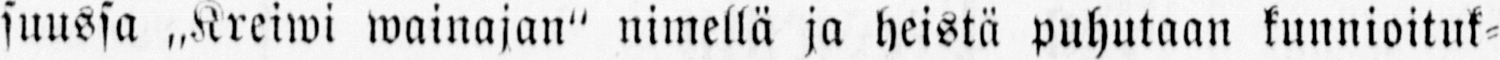suussa „Kreiwi wainajan" nimellä ja heistä puhutaan kunnioituk-
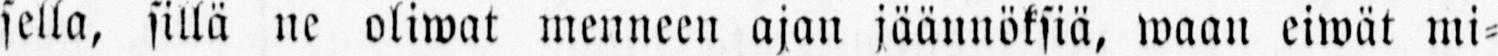sella, sillä ne oliwat menneen ajan jäännöksiä, waan eiwät mi-
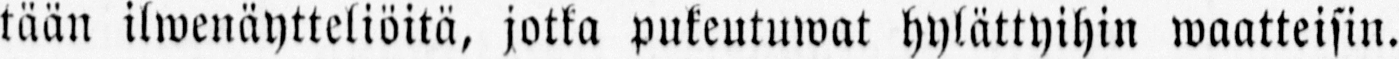tään ilwenäytteliöitä, jotka pukeutuwat hylättyihin waatteisin.
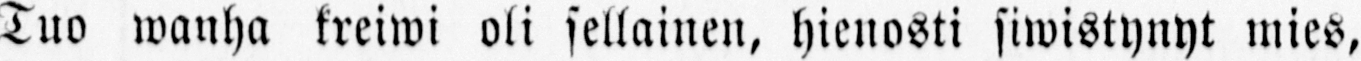Tuo wanha kreiwi oli sellainen, hienosti siwistynyt mies,
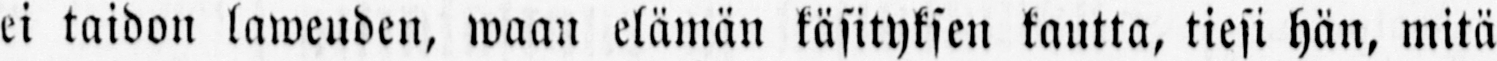ei taidon laweuden, waan elämän käsityksen kautta, tiesi hän, mitä
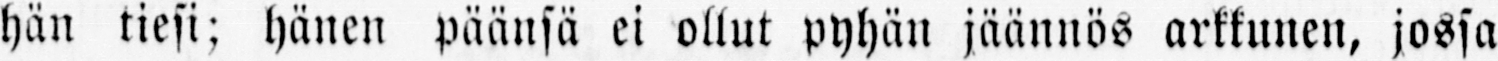hän tiesi; hänen päänsä ei ollut pyhän jäännös arkkunen, jossa
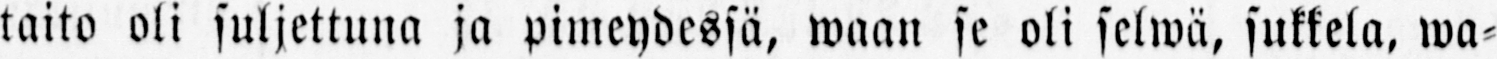taito oli suljettuna ja pimeydessä, waan se oli selwä, sukkela, wa-
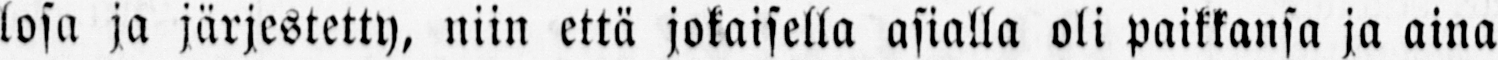losa ja järjestetty, niin että jokaisella asialla oli paikkansa ja aina
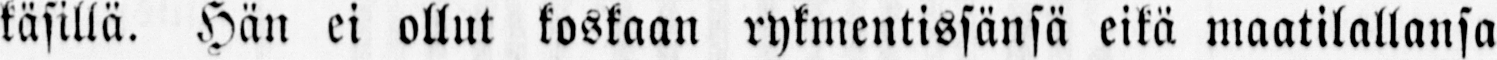käsillä. Hän ei ollut koskaan rykmentissänsä eikä maatilallansa
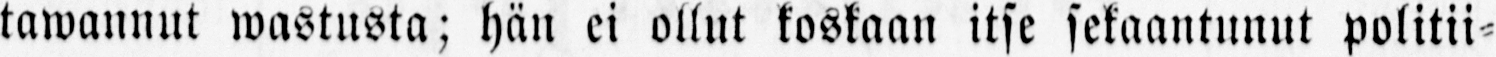tawannut wastusta; hän ei ollut koskaan itse sekaantunut politii-
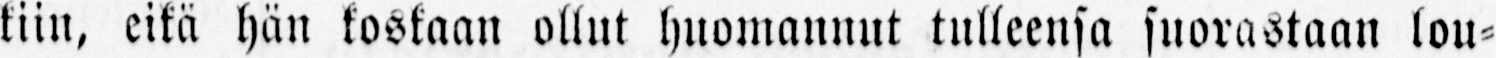kiin, eikä hän koskaan ollut huomannut tulleensa suorastaan lou-
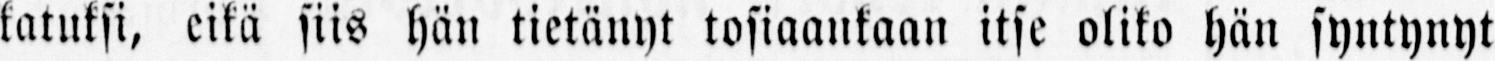katuksi, eikä siis hän tietänyt tosiaankaan itse oliko hän syntynyt
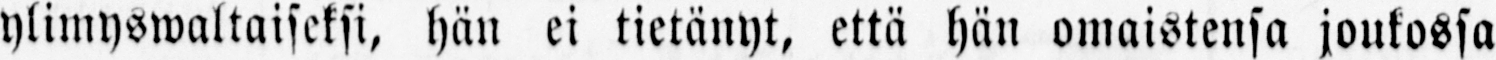ylimyswaltaiseksi, hän ei tietänyt, että hän omaistensa joukossa
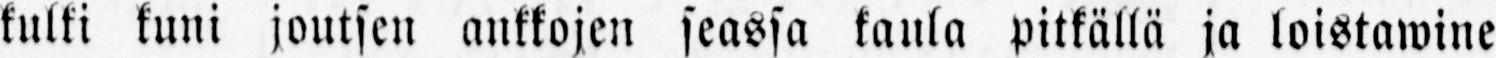kulki kuni joutsen ankkojen seassa kaula pitkällä ja loistawine
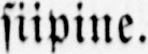siipine.
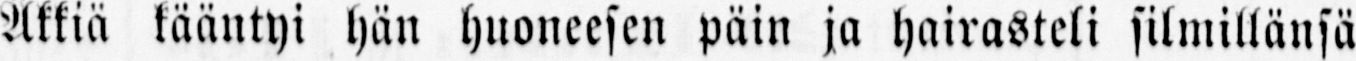Åkkiä kääntyi hän huoneesen päin ja hairasteli silmillänsä
